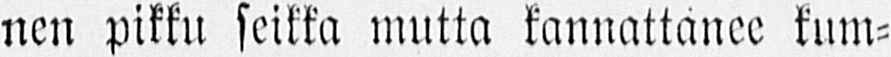nen pikku seikka mutta kannattanee kum-
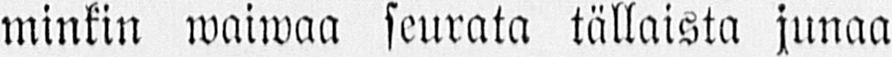minkin waiwaa seurata tällaista junaa
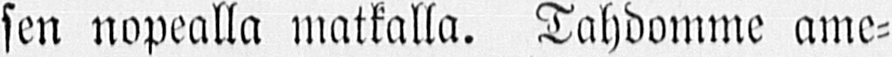sen nopealla matkalla. Tahdomme ame-
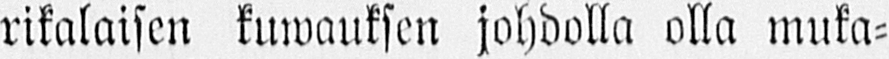rikalaisen kuwauksen johdolla olla muka-
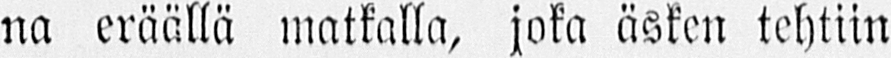na eräällä matkalla, joka äsken tehtiin
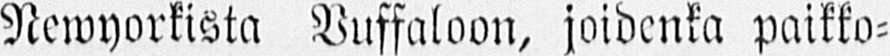Newyorkista Vuffaloon, joidenka paikko-
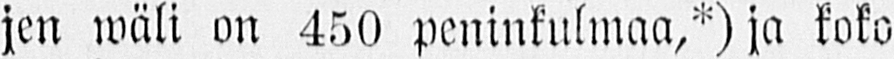jen wäli on 450 peninkulmaa,*) ja koko
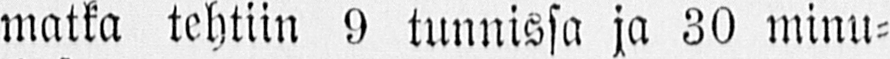matka tehtiin 9 tunnissa ja 30 minu-
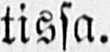tissa.
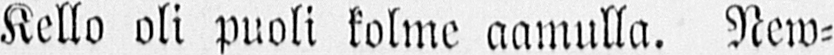Kello oli puoli kolme aamulla. New-
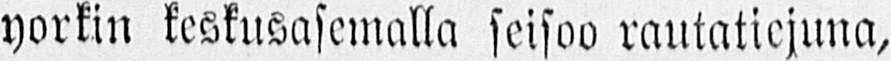yorkin keskusasemalla seisoo rautatiejuna.
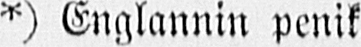*) Englannin penik.
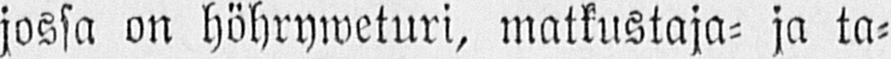jossa on höhryweturi, matkustaja- ja ta-
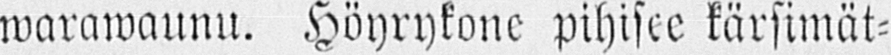warawaunu. Höyrykone pihisee kärsimät-
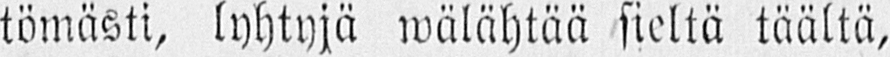tömästi, lyhtyjä wälähtää sieltä täältä,
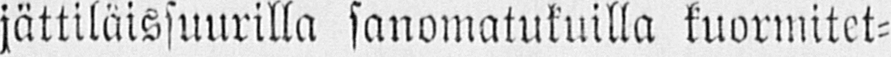jättiläissuurilla sanomatukuilla kuormitet-
